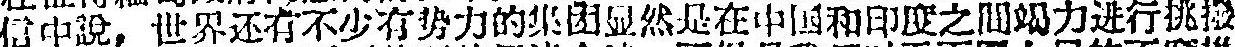信中說，世界还有不少有势力的集团显然是在中国和印度之間竭力进行挑撥
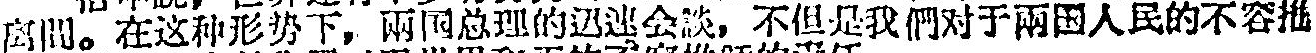离間。在这种形势下，兩国总理的迅速会談，不但是我們对于兩国人民的不容推
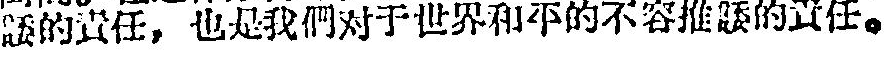諉的責任，也是我們对于世界和平的不容推諉的責任。
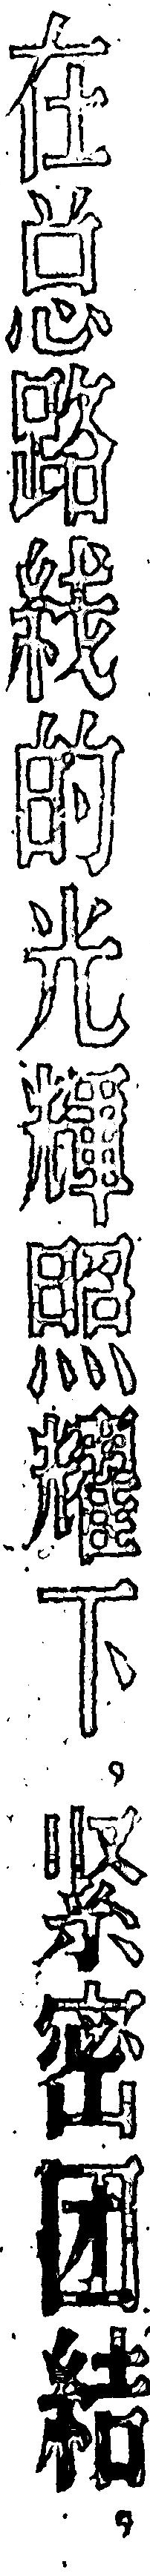在总路线的光輝照耀下，紧密团結
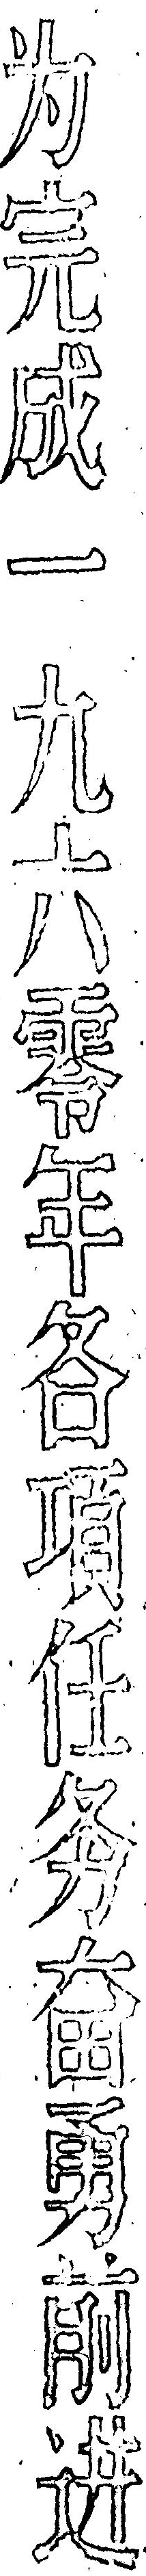为完成一九六零年各項任务奋勇前进
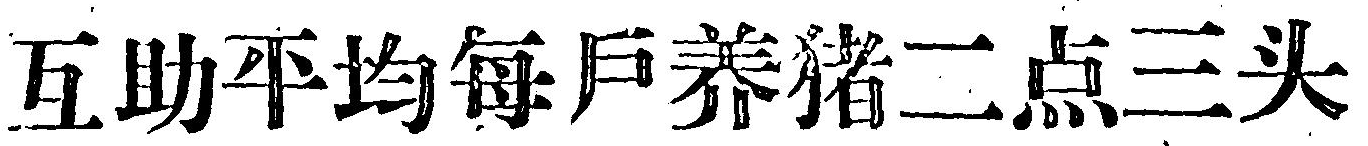互助平均每戶养猪二点三头
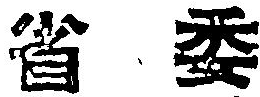省 委
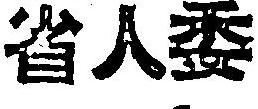省人委
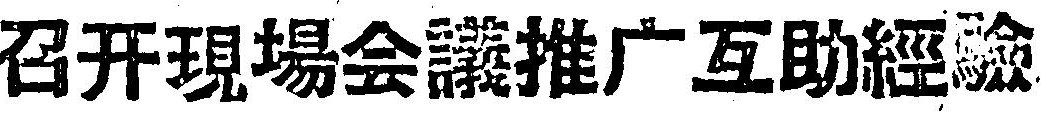召开現場会議推广互助經驗
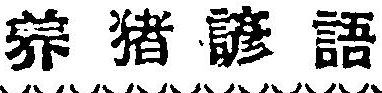养 猪 諺 語
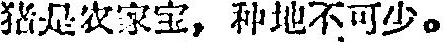猪是农家宝，种地不可少。
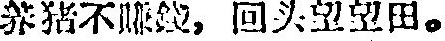养猪不賺錢，回头望望田。
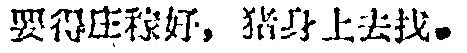要得庄稼好，猪身上去找。
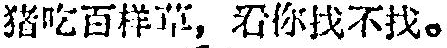猪吃百样草，看你找不找。
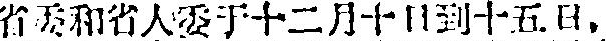省委和省人委十十二月十日到十五日，
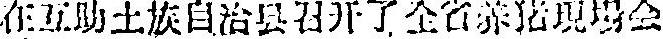位互助土族自治县召开了全省养猪現場会
